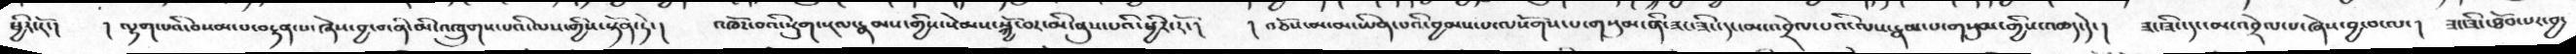ཕྱིར་རོ་།   ། ལྷག་པའི་བསམ་པ་བརྟན་པ་ཞེས་བྱ་བ་ནི་མི་འཁྲུགས་པའི་ལས་གྱིས་སྟོན་ཏེ་།   འཁོར་བའི་སྡུག་སྔལ་རྣམས་གྱིས་སེམས་སྐྱོ་བར་མི་ནུས་པའི་ཕྱིར་རོ་།    ། བཅོས་མ་མ་ཡིན་པའི་བྱམས་པ་ལསོགས་པ་གསུམ་ནི་ཟང་ཟིང་དང་མ་འབྲེལ་པའི་ལས་རྣམ་པ་གསུམ་གྱིས་འཆད་དེ་།   ཟང་ཟིང་དང་མ་འབྲེལ་པ་ཞེས་བྱ་བ་ལ་།  ཟང་ཟིང་ཐོབ་པར་བྱ་
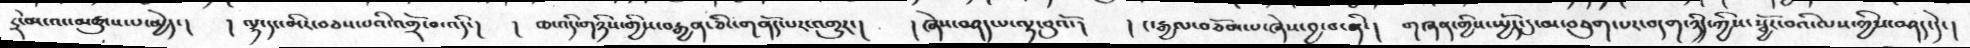དྲི་མ་འང་མཚུངས་པ་མྱེད་།   ། ལྷ་དང་མིར་བཅས་པའི་འགྲོ་བ་འདི་།    ། ཆ་འདི་གཉིས་གྱིས་བརྒྱན་ཅིང་གནོད་པར་འགྱུར་།   ། ཞེས་བཤད་པ་ལྟ་བུའོ་།   ། ང་རྒྱལ་བཅོམ་པ་ཞེས་བྱ་བ་ནི་།    གཞན་གྱིས་སྤྱོད་དུ་མ་བཅུག་པར་བདག་ཉིད་ཀྱིས་སྦྱོར་བའི་ལས་ཀྱིས་བཤད་དེ་།
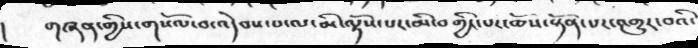།    གཞན་གྱིས་གསོལ་བ་འདེབས་པ་ལ་མི་ལྟོས་པར་མི་བགྱིང་པར་ཆོས་སྟོན་པར་འགྱུར་བའི་
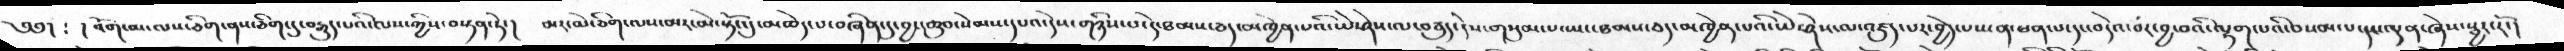༄༅།  ༴ །  འོག་མ་ལས་ཅིག་ནས་ཅིག་དུ་བརྒྱུད་པའི་ལས་ཀྱིས་བསྟན་ཏེ་།   མར་མེ་ཅིག་ལས་མར་མེ་སྟོང་དུ་མཆེད་པ་བཞིན་དུ་བྱང་ཆུབ་སེམས་དཔའ་དེས་གཉིས་པ་དེ་ཐམས་ཅད་མཁྱེན་པའི་ཡེ་ཤེས་ལ་བཅུད་དེས་གསུམ་པ་ཡང་ཐམས་ཅད་མཁྱེན་པའི་ཡེ་ཤེས་ལ་འཛུད་པར་བྱེད་པས་ན་ཕན་པ་དང་བདེའ་བར་བྱ་བའི་ལྷག་པའི་བསམ་པ་དང་ལྡན་ཞེས་སྦྱར་རོ་།
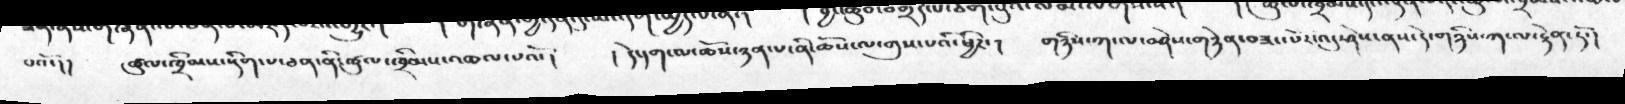པའོ་།།   ཚུལ་ཁྲིམས་སྡིག་པ་ཅན་ནི་ཚུལ་ཁྲིམས་འཆལ་པའོ་།   །དེ་དག་ལ་ཆོས་ཉན་པ་ནི་ཆོས་ལ་གུས་པའི་ཕྱིར་།  གཉིས་ཀ་ལ་བཤེས་གཉེན་བཟང་པོར་འདུ་ཤེས་ནས་དེ་གཉིས་ཀ་ལ་རྟེན་ཏོ་།
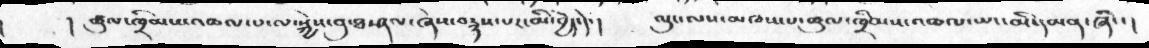། ཚུལ་ཁྲིམས་འཆལ་པ་ལ་སྐྱེས་བུ་ཐ་ཤལ་ཞེས་བརྙས་པར་མི་བྱེད་དེ་།     ལུང་ལས་མཁས་པ་ཚུལ་ཁྲིམས་འཆལ་ཡང་མི་དམན་ཞིང་།
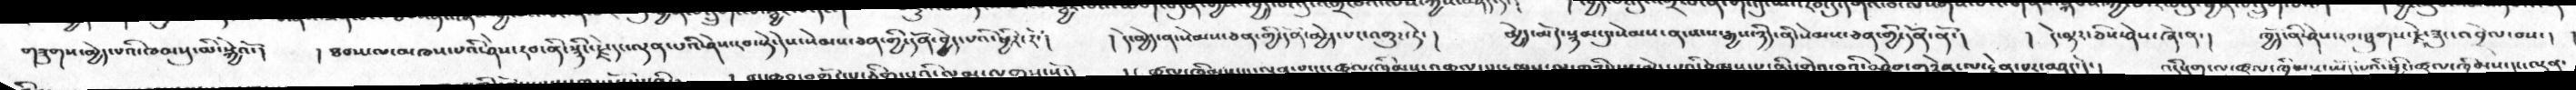གཟུགས་མྱེད་པའི་ཁམསུ་མི་སྐྱེའོ་།   །ཐབས་ལ་མཁས་པའི་ཤེས་རབ་ནི་སྙིང་རྗེ་དང་ལྡན་པའི་ཤེས་རབ་སྟེ་དེས་སེམས་ཅན་གྱི་དོན་བྱེད་པའི་ཕྱིར་རོ་།   །དེ་མྱེད་ན་སེམས་ཅན་ཀྱི་དོན་མྱེད་པར་འགྱུར་ཏེ་།  མྱེད་མོད་སྙམ་དུ་སེམས་ན་སངས་རྒྱས་ཉིད་ནི་སེམས་ཅན་གྱི་དོན་ནོ་།  །དེ་ལྟར་ཅིས་ཤེས་ཞེ་ན་།   ཁྱོད་ནི་ཤེས་རབ་ཐུགས་རྗེ་ཟུང་འབྲེལ་བས་།
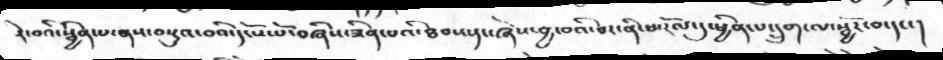རེ་བའི་སྦྱིན་པ་ནས་བསྡུའ་བའི་དངོས་པོ་བཞིས་ཟིན་པའི་ཐབས་དང་ཞེས་བྱ་བའི་བར་ནི་ཕ་རོལ་དུ་ཕྱིན་པ་དྲུག་ལ་སྦྱོར་བ་དང་།
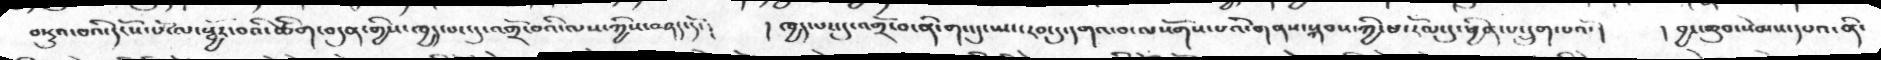བསྡུའ་བའི་དངོས་པོ་ལ་སྦྱོར་བའི་ཚིག་བདུན་གྱིས་ཁྱད་པར་དུ་འགྲོ་བའི་ལས་ཀྱིས་བཤད་དོ་།    ། ཁྱད་པར་དུ་འགྲོ་བ་ནི་གང་དུ་ཡང་རབ་དུ་དགའ་བ་ལསོགས་པའི་གནས་སྐབས་ཀྱི་ཕ་རོལ་དུ་ཕྱིན་པ་དྲུག་པའོ་།    ། བྱང་ཆུབ་སེམས་དཔའ་ནི་
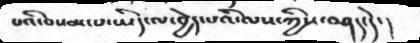པའི་བསམ་པ་ཡིད་ལ་བྱེད་པའི་ལས་ཀྱིས་བཤད་དེ་།
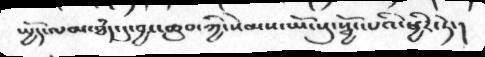སྤྱོད་ལམ་ཐཾད་དུ་བྱང་ཆུབ་ཀྱི་སེམས་ཡོངསུ་སྦྱོང་པའི་ཕྱིར་ཏེ་།
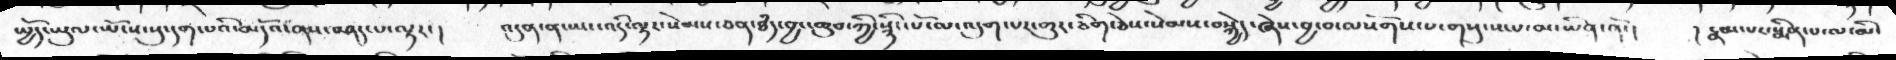སྤྱོད་ཡུལ་ཡོངས་སུ་དག་པའི་མདོའ་ནས་བཤད་པ་ལྟར་།   འདུན་ན་ཡང་འདི་ལྟར་སེམས་ཅན་ཐཾད་བྱང་ཆུབ་ཀྱི་སྙིང་པོ་ལ་འདུག་པར་གྱུར་ཅིག་ཅེས་སེམས་བསྐྱེད་ཞེས་བྱ་བ་ལསོགས་པ་གསུངས་པ་མ་ཡིན་ནོ་།   ། རྣམ་པར་སྨིན་པ་ལ་མི་
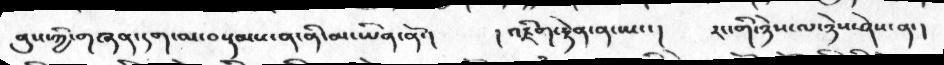ནུས་ཀྱི་གཞན་དག་མ་བསྡམས་ན་ནི་མ་ཡིན་ནོ་།    ། འཇིག་རྟེན་ན་ཡང་།   རང་གི་ཉེས་ལ་ཉེས་ཤེས་ན་།
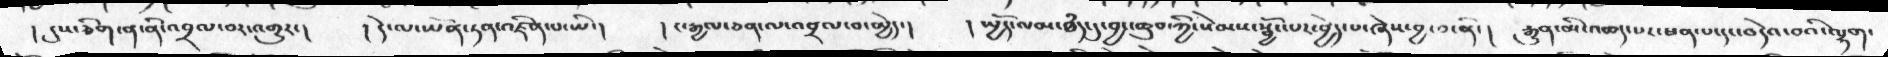། དུས་ཅིག་ན་ནི་འབྲལ་བར་འགྱུར་།   ། དེ་ལ་ཡོན་ཏན་འཛིན་པ་ཡི་།   ། ང་རྒྱལ་ཅན་ལ་འབྲལ་བ་མྱེད་།   ། སྤྱོད་ལམ་ཐཾད་དུ་བྱང་ཆུབ་ཀྱི་སེམས་སྦྱོང་པར་བྱེད་པ་ཞེས་བྱ་བ་ནི་།  རྒྱུན་མི་འཆད་པར་ཕན་པ་དང་བདེའ་བའི་ལྷག་
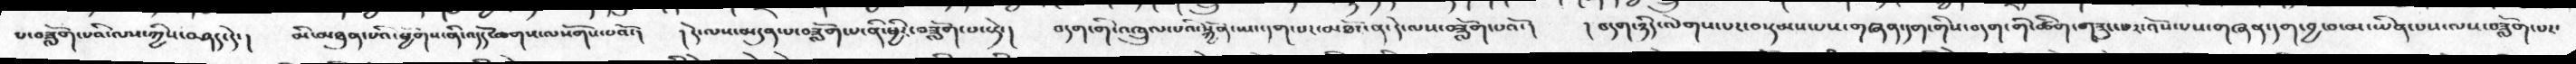པ་བཟློག་པའི་ལས་ཀྱིས་བཤད་དེ་།   མི་མཐུན་པའི་ཕྱོགས་ནི་འདོད་ཆགས་ལསོགས་པའོ་།   ། དེ་ལས་མདུན་པ་བཟློག་པ་ནི་ཕྱིར་བཟློག་པ་སྟེ་།   བདག་ནི་འཁྲུལ་པའི་སྐྱོན་ཡང་དག་པར་མཐོང་ན་དེ་ལས་བཟློག་པའོ་།    ། བདག་ཉིད་ལེགས་པར་བསྡམས་པས་གཞན་དག་གིས་བདག་གི་ཚིག་གཟུང་བར་འོས་པས་གཞན་དག་བྱ་བ་མ་ཡིན་པས་ལས་བཟློག་པར་
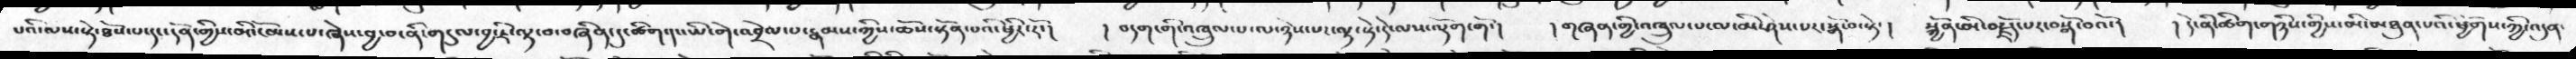པའི་ལས་སྟེ་ཐོས་པ་དང་དོན་གྱིས་མི་ངོམས་པ་ཞེས་བྱ་བ་ནི་གདུལ་བྱ་ཇི་ལྟ་བ་བཞིན་དུ་ཚིག་དང་ཡི་གེ་འབྲེལ་པ་རྣམས་ཀྱིས་ཆོས་སྟོན་པའི་ཕྱིར་རོ་།    ། བདག་གི་འཁྲུལ་པ་ལ་ཉེས་པར་ལྟ་སྟེ་དེ་ལས་ལྡོག་གོ་།   ། གཞན་གྱི་འཁྲུལ་པ་ལ་མི་ཤེས་པར་སྒོ་བ་སྟེ་།    སྐྱོན་མི་བརྗོད་པར་བསྒོ་བའོ་།   ། དེ་ནི་ཚིག་གཉིས་གྱིས་མི་མཐུན་པའི་ཕྱོགས་ཀྱི་འདུན་
